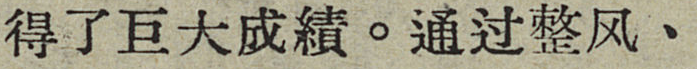得了巨大成績。通过整风、
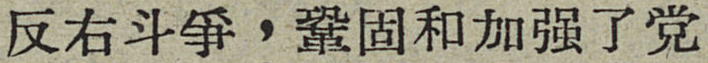反右斗爭，鞏固和加强了党
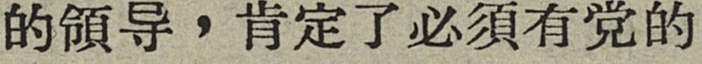的領导，肯定了必須有党的
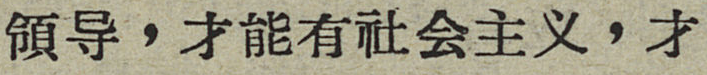領导，才能有社会主义，才
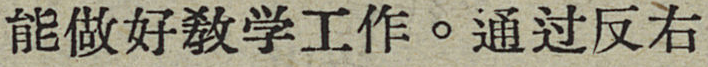能做好敎学工作。通过反右
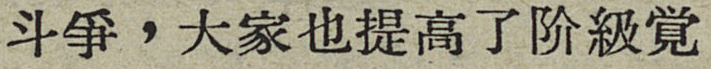斗爭，大家也提高了阶級覚
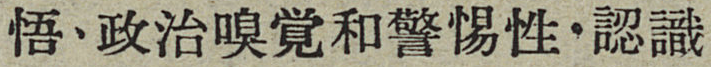悟、政治嗅覚和警惕性，認識
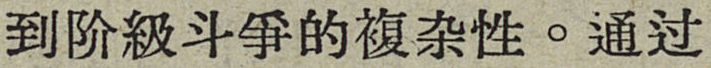导阶級斗爭的複杂性。通过
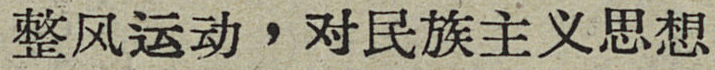整风运动，对民族主义思想
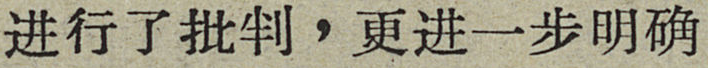进行了批判，更进一步明确
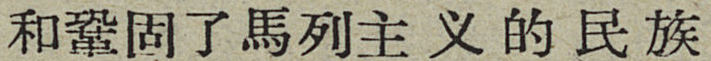和鞏固了馬列主义的民族
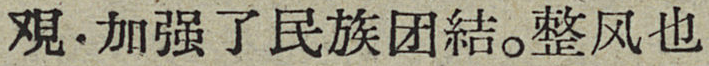覌，加强了民族团結。整风也
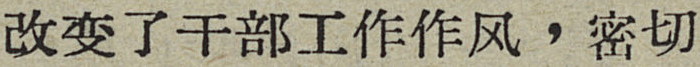改变了干部工作作风，密切
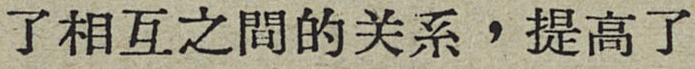了相互之間的关系，提高了
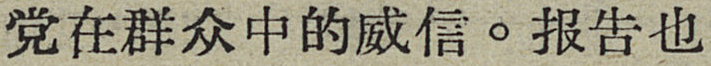党在群众中的威信。报告也
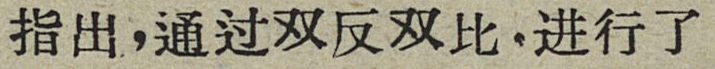指出，通过双反双比，进行了
